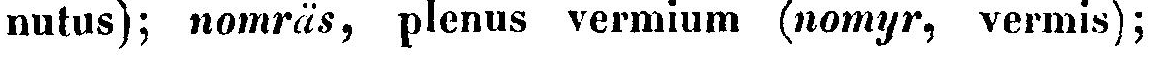nutus); nomräs, plenus vermium (nomyr, vermis);
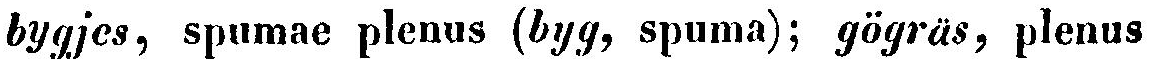bygjes, spumae plenus (byg, spuma); gögräs, plenus
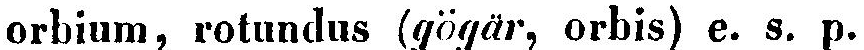orbium, rotundus (gögär, orbis) e. s. p.
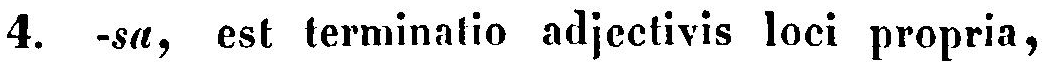4. -sa, est terminatio adjectivis loci propria,
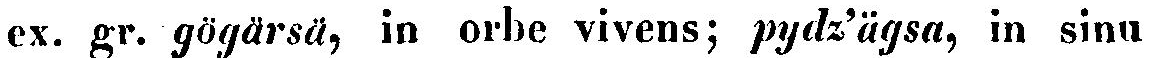ex. gr. gögärsä, in orbe vivens; pydz'ägsa, in sinu
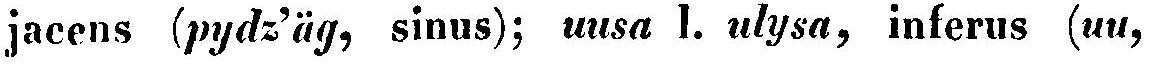jacens (pydz'äg, sinus); uusa l. ulysa, inferus (uu,
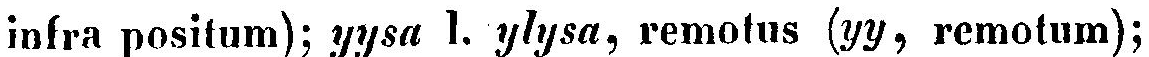infra positum); yysa l. ylysa, remotus (yy, remotum);
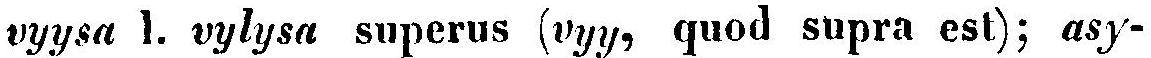vyysa l. vylysa superus (vyy, quod supra est); asy-
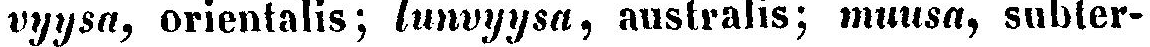vyysa, orientalis; lunvyysa, australis; muusa, subter-
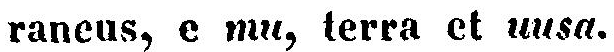raneus, e mu, terra et uusa.
